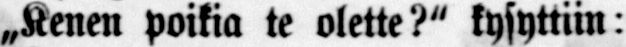„Kenen poikia te olette?" kysyttiin:
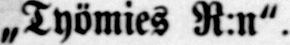„Työmies R:n".
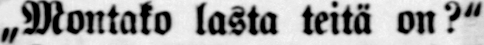„Montako lasta teitä on ?"
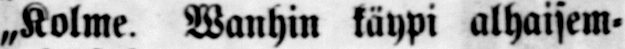„Kolme. Wanhin käypi alhaisem-
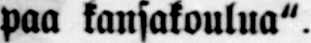paa kansakoulua".
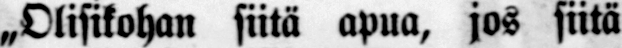„Olisikohan siitä apua, jos siitä
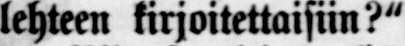lehteen kirjoitettaisiin?"
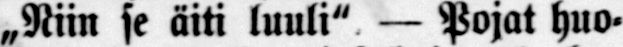„Niin se äiti luuli" — Pojat huo-
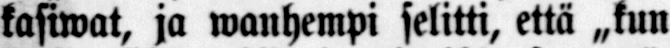kasiwat, ja wanhempi selitti, että „kun
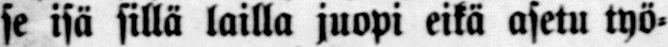se isä sillä lailla juopi eikä asetu työ-
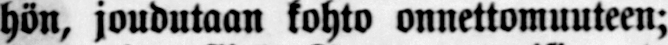hön, joudutaan kohto onnettomuuteen;
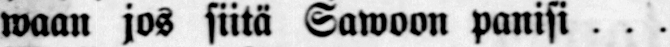waan jos siitä Sawoon panisi . . .
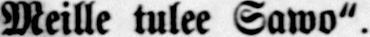Meille tulee Sawo".
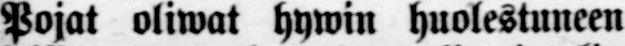Pojat oliwat hywin huolestuneen
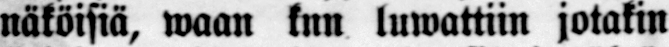näköisiä, waan knn luwottiin jotakin
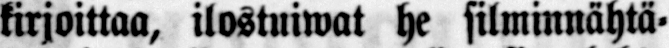kirjoittaa, ilostuiwat he silminnähtä-
